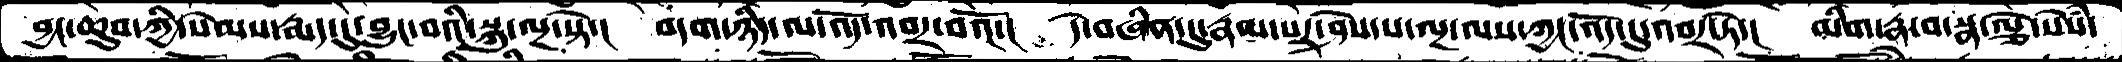བྱང་ཆུབ་ཀྱི་སེམས་རྨད་དུ་བྱུང་བའི་སྐུ་ལྔ་སྟེ་།  བདག་ཉིད་ལ་འོད་འབར་བའོ་།  དེ་བཞིན་དུ་རྣམ་པར་ཤེས་པ་ལྔ་ལས་ཀྱང་འོད་དུ་འབར་ཏེ་།  མིག་རྣ་བ་སྣ་ལྕེ་སེཾས་
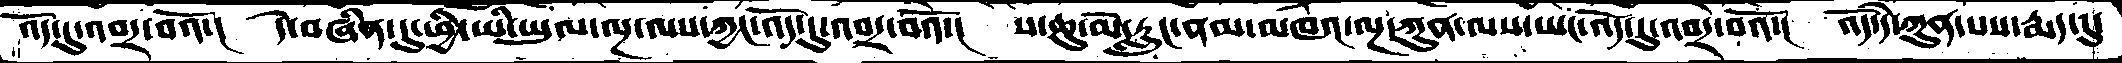འོད་དུ་འབར་བའོ་།  དེ་བཞིན་དུ་ཕྱི་ཡི་ཡུལ་ལྔ་ལས་ཀྱང་འོད་དུ་འབར་བའོ་།  ས་ཆུ་མེ་རླུང་ནམ་མཁའ་ལྔ་ཀུན་ལས་ཡང་འོད་དུ་འབར་བའོ་།  འོད་དེ་ཀུན་པས་རྨད་དུ་
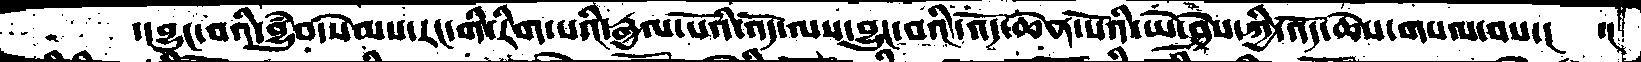་།བྱུང་བའི་བྱུཾབ་སེམས་རང་གི་རིག་པའི་རྒྱལ་པོའི་འོད་ལས་བྱུང་བའི་འོད་ཆེན་པོའི་ཡེ་ཤེས་ཀྱི་འོད་ཆེས་གསལ་བས་།    ་།
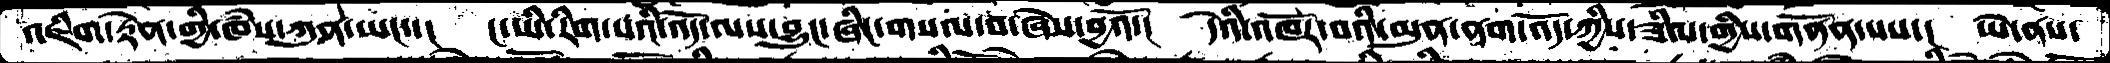འཇིག་རྟེན་གྱི་ཁཾས་ཀུན་ཡང་་།  ང་ཡི་རིག་པའི་འོད་ལས་བྱུང་ཞིང་གསལ་བ་ཞེས་བྱའོ་།  དེའི་འཁོར་བའི་མུན་ནག་འོད་ཀྱིས་ཟིལ་གྱིས་གནོད་པས་།  ཡེ་ནས་
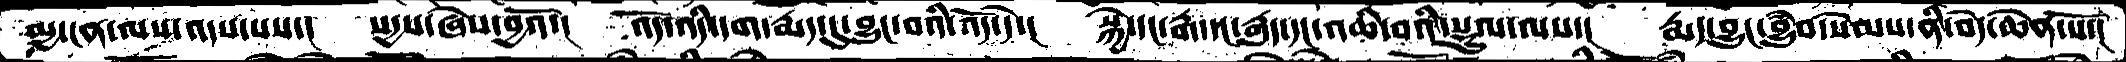མྱ་ངན་ལས་འདས་པས་། སདྱས་ཞེས་བྱའོ་། འོད་འདི་དག་རྨད་དུ་བྱུང་བའི་འོད་དེ་། སྐྱེ་དང་རྒ་དང་རྒུད་དདང་འཆི་བའི་སྡུཾལ་ལས་། རྨད་བྱུང་བྱུཾབ་སེམས་ནི་བདེ་ཆེན་པོ་།
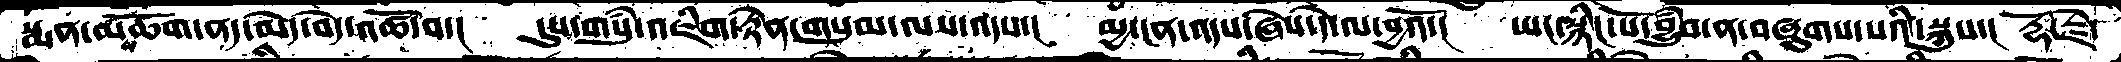སྨན་མཆོག་ནད་མེད་བདེ་འཚོ་བ་།  དུས་གསུམ་འཇིག་རྟེན་གསུམ་ལས་འདས་།  མྱ་ངན་འདས་ཞེས་དེ་ལ་བྱའོ་།   ཡང་སྙིང་པོ་བྱུཾབ་ན་བཞུགས་པའི་སྐུས་།  རྡོ་རྗེ་
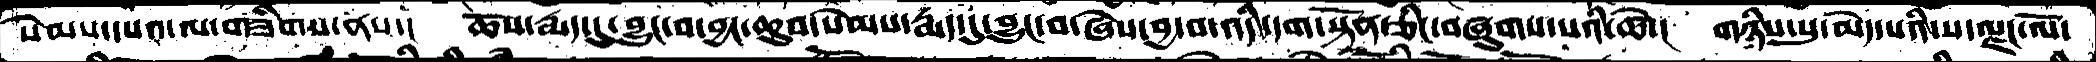སེམས་དཔའ་ལ་གཟིགས་ནས་།  ཆོས་རྨད་དུ་བྱུང་བ་བྱང་ཆུབ་སེམས་རྨད་དུ་བྱུང་བ་ཞེས་བྱ་བ་འདི་དག་སྟོན་ཅིང་བཞུགས་པའི་ཚེ་།  གཉིས་སུ་མེད་པའི་ས་ལྗང་ལོ་
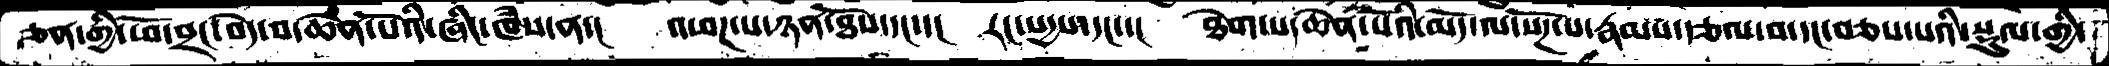ཅན་གྱི་ཕོ་བྲང་བདེ་བ་ཆེན་པོའི་ཞིང་ཁཾས་ན་།  འཕཌ་པ་ཉན་ཐོས་དང་་།  རང་སདྱས་དང་་།  ཐེག་པ་ཆེན་པོའི་མདོ་ལ་སོཌ་པ་རྣམས་རྩལ་བ་དང་བཅས་པའི་སྡུལ་གྱི་
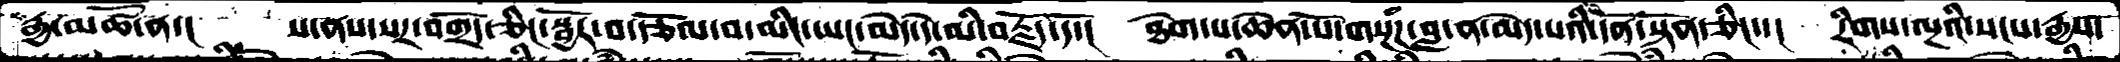རྒྱ་མཚོ་ན་།  ས་ནས་སར་བགྲོད་ཅིང་སྦྱོར་བ་རྩོལ་བ་མིང་ཡང་མེད་དེ་མི་བརྗོད་དོ་།  ཐེག་པ་ཆེན་པོ་གསྔཾཌ་བླ་ན་མེད་པའི་དོན་སྟོན་ཅིང་་།  རིགས་ལྔའི་སངས་རྒྱས་
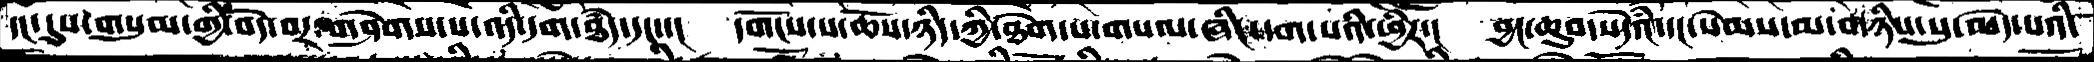དང་དུས་གསུམ་གྱི་བདེ་བར་གཤེགས་པ་འདི་དག་ཐཾད་དང་་། དགོངས་པ་ཆོས་ཉིད་ཀྱི་ཐེག་པ་གསལ་ཞིང་དག་པའི་ཕྱིར་།  བྱང་ཆུབ་སེདཾའ་དང་སེམས་མ་གཉིས་སུ་མེད་པའི་
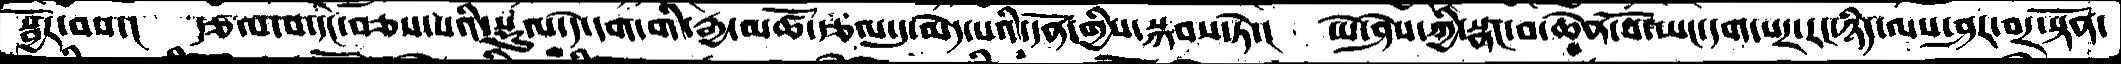སྦྱོར་བས་།  རྩལ་བ་དང་བཅས་པའི་སྡུལ་དེ་དག་གི་རྒྱ་མཚོ་རྩལ་དུ་མེད་པའི་དོན་གྱིས་སྐབས་ཏེ་།  ཡེ་ཤེས་ཀྱི་སྣང་བ་ཆེན་པོ་ཡང་དག་པར་རང་ཉིད་ལས་ཤར་བར་སྟོན་
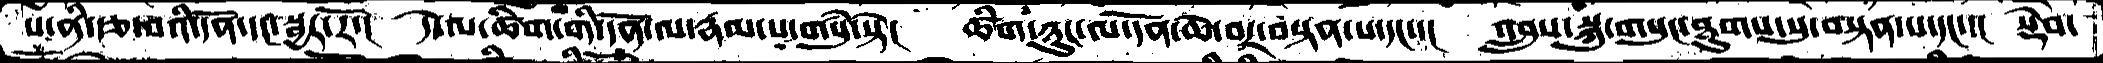ས་ནི་རྩ་བའི་དོན་དང་སྦྱར་རོ་།  དེ་ལ་ཚིག་གི་དོན་ལ་རྣམ་པ་གསུཾ་སྟེ།  ཚིག་ཉུང་ལ་དོན་ཆེ་བར་བསྟན་པ་དང་་།  འབྲུས་སྐུ་གསུང་ཐུགས་སུ་བསྟན་པ་དང་་།  སྡེབ་
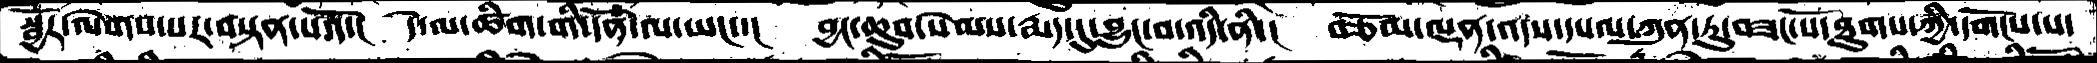སྦྱོར་ལེགས་པར་བསྟན་པའོ་།  དེ་ལ་ཚིག་གི་དོན་ལ་ཡང་་།  བྱང་ཆུབ་སེམས་རྨད་དུ་བྱུང་བ་འདི་ནི་།  བཅོམ་ལྡན་འདས་དཔལ་ཀུན་ཏུ་བཟང་པོ་ཐུགས་ཀྱི་དགོངས་པ་
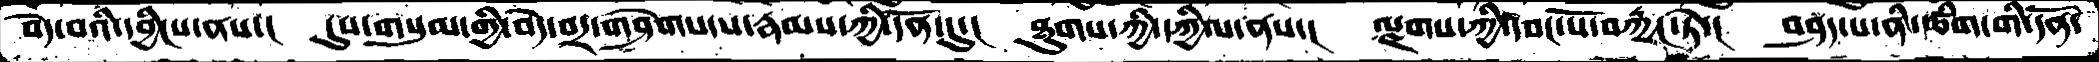བདེ་བའི་དབྱིངས་ནས་།  དུས་གསུམ་གྱི་བདེ་བར་གཤེགས་པ་རྣམས་ཀྱི་དོན་དུ་།  ཐུགས་ཀྱི་དཀྱིལ་ནས་།  ལྗགས་ཀྱི་དབང་པོ་བརྐྱང་ཏེ་།  བཤད་པ་ནི་ཚིག་གི་དོན་
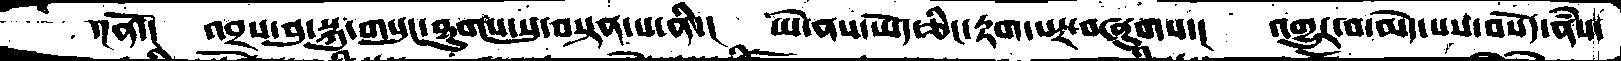་།ནོ་།  འབྲས་བུ་སྐུ་གསུང་ཐུགས་སུ་བསྟན་པ་ནི་།  ཡེ་ནས་ཡོད་ཅིང་རྟག་པར་བཞུགས་།  འགྱུར་བ་མེད་པས་བསོད་ནཾས་
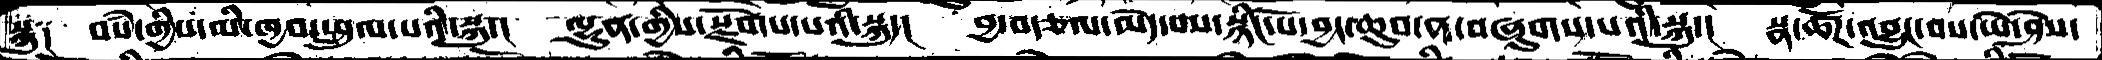སྐུ༑  བསཾ་གྱིས་མི་ཁྱབ་སྤྲུལ་པའི་སྐུ་།  ལྷུན་གྱིས་སྫོགས་པའི་སྐུ་།  བྱ་བརྩལ་མེད་པས་སྙིང་པོ་བྱང་ཆུབ་ན་བཞུགས་པའི་སྐུ་།  སྣ་ཚོཌ་འབྱུང་བས་ཡེ་ཤེས་
